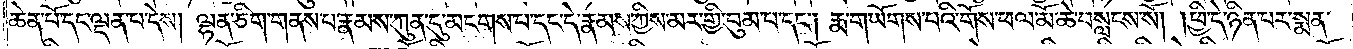ཆེན་པོ་དང་ལྡན་པ་དེས། ལྷན་ཅིག་གནས་པ་རྣམས་ཀུན་དུ་མངགས་པ་དང་དེ་རྣམས་ཀྱིས་མར་གྱི་བུམ་པ་དང༌། རྨ་གཡོགས་པའི་གོས་ཕལ་མོ་ཆེ་བསླངས་སོ། །ཕྱི་དེ་ཉིན་པར་སྨན་
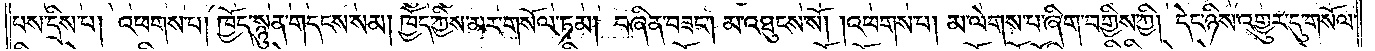པས་དྲིས་པ། འཕགས་པ། ཁྱོད་སྙུན་གདངས་སམ། ཁྱོད་ཀྱིས་མར་གསོལ་ཏམ། བཞིན་བཟང༌། མ་འཐུངས་སོ། །འཕགས་པ། མ་ལེགས་པ་ཞིག་བགྱིས་ཀྱི། དེང་ཉིས་འགྱུར་དུ་གསོལ་
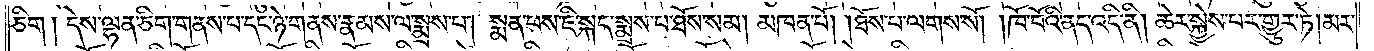ཅིག། དེས་ལྷན་ཅིག་གནས་པ་དང་ཉེ་གནས་རྣམས་ལ་སྨྲས་པ། སྨན་པས་ཇི་སྐད་སྨྲས་པ་ཐོས་སམ། མཁན་པོ། །ཐོས་པ་ལགས་སོ། །ཁོ་བོའི་ནད་འདི་ནི། ཆེར་སྐྱེས་པར་གྱུར་ཏེ། མར་
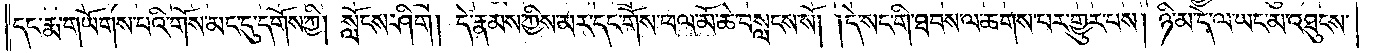དང་རྨ་གཡོགས་པའི་གོས་མང་དུ་དགོས་ཀྱི། སློངས་ཤིག། དེ་རྣམས་ཀྱིས་མར་དང་གོས་ཕལ་མོ་ཆེ་བསླངས་སོ། །དེ་སང་གི་ཐབས་ལ་ཆགས་པར་གྱུར་པས། ཉི་མ་དེ་ལ་ཡང་མ་འཐུངས་
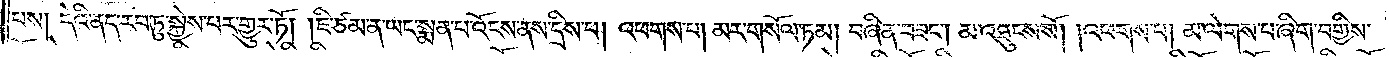པས། དེའི་ནད་རབ་ཏུ་སྐྱེས་པར་གྱུར་ཏོ། །ཇི་ཙམ་ན་ཡང་སྨན་པ་འོངས་ནས་དྲིས་པ། འཕགས་པ། མར་གསོལ་ཏམ། བཞིན་བཟང༌། མ་འཐུངས་སོ། །འཕགས་པ། མ་ལེགས་པ་ཞིག་བགྱིས་
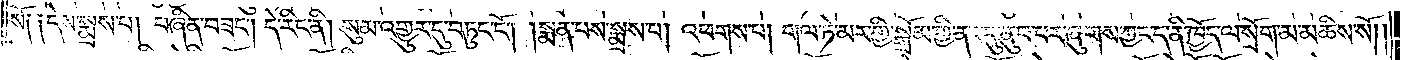སོ༑ ༑དེས་སྨྲས་པ། བཞིན་བཟང༌། དེ་རིང་ནི། སུམ་འགྱུར་དུ་བཏུང་ངོ༌། །སྨན་པས་སྨྲས་པ། འཕགས་པ། གལ་ཏེ་མར་གྱི་སྒྲོམ་གྱི་ནང་དུ་ནུབ་པར་ཞུགས་ཀྱང་ད་ནི་ཁྱོད་ལ་སྲོག་མ་མཆིས་སོ༎
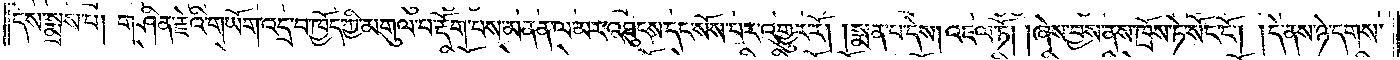དེས་སྨྲས་པ། གཤིན་རྗེའི་གཡོག་འདྲ་བ་ཁྱོད་ཀྱི་མགུལ་པ་རྡོག་པས་མནན་ལ་མར་འཐུངས་དང་སོས་པར་འགྱུར་རོ། །སྨན་པ་དེས། འཇལ་ཏོ། །ཞེས་བྱས་ནས་ཁྲོས་ཏེ་སོང་ངོ༌། །དེ་ནས་ཉེ་དགས་
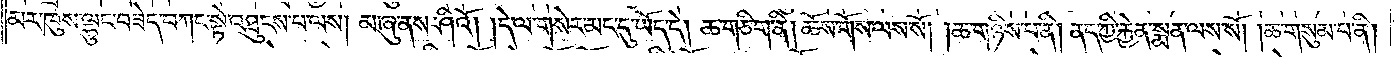མར་ཁུས་ལྷུང་བཟེད་བཀང་སྟེ་འཐུངས་པ་ལས། མ་ཞུ་ནས་ཤིའོ། །དེ་ལ་གསེར་མང་དུ་ཡོད་དེ། ཆ་གཅིག་ནི། ཆོས་གོས་ལས་སོ། །ཆ་གཉིས་པ་ནི། ནད་ཀྱི་རྐྱེན་སྨན་ལས་སོ། །ཆ་གསུམ་པ་ནི།
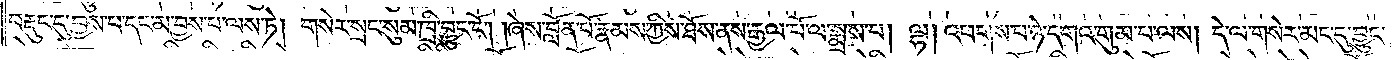བརྡུང་དུ་བྱས་པ་དང་མ་བྱས་པ་ལས་ཏེ། གསེར་སྲང་སུམ་ཁྲི་བྱུང་ངོ༌། །ཞེས་བློན་པོ་རྣམས་ཀྱིས་ཐོས་ནས་རྒྱལ་པོ་ལ་སྨྲས་པ། ལྷ། འཕགས་པ་ཉེ་དགའ་གུམ་པ་ལས། དེ་ལ་གསེར་མང་དུ་བྱུང་
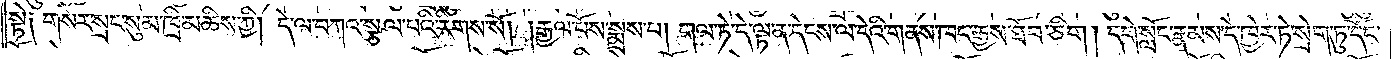སྟེ༑ གསེར་སྲང་སུམ་ཁྲི་མཆིས་ཀྱི། དེ་ལ་བཀའ་སྩལ་བའི་རིགས་སོ། །རྒྱལ་པོས་སྨྲས་པ། གལ་ཏེ་དེ་ལྟ་ན་དེངས་ལ་དེའི་གནས་ཁང་རྒྱས་ཐོབ་ཅིག། དགེ་སློང་རྣམས་དེ་ཁྱེར་ཏེ་སྲེག་ཏུ་དོང་
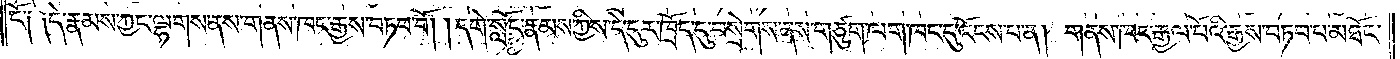ངོ༑ ༑དེ་རྣམས་ཀྱང་ལྷགས་ནས་གནས་ཁང་རྒྱས་བཏབ་བོ། །དགེ་སློང་རྣམས་ཀྱིས་དེ་དུར་ཁྲོད་དུ་བསྲེགས་ནས་གཙུག་ལག་ཁང་དུ་འོངས་པ་ན། གནས་ཁང་རྒྱལ་པོའི་རྒྱས་བཏབ་པ་མཐོང་
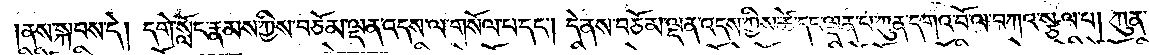།ནས་སྐབས་དེ། དགེ་སློང་རྣམས་ཀྱིས་བཅོམ་ལྡན་འདས་ལ་གསོལ་པ་དང༌། དེ་ནས་བཅོམ་ལྡན་འདས་ཀྱིས་ཚེ་དང་ལྡན་པ་ཀུན་དགའ་བོ་ལ་བཀའ་སྩལ་པ། ཀུན་
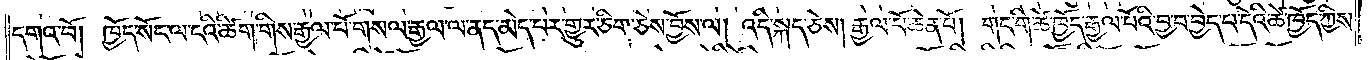དགའ་བོ། ཁྱོད་སོང་ལ་ངའི་ཚིག་གིས་རྒྱལ་པོ་གསལ་རྒྱལ་ལ་ནད་མེད་པར་གྱུར་ཅིག་ཅེས་བྱོས་ལ། འདི་སྐད་ཅེས། རྒྱལ་པོ་ཆེན་པོ། གང་གི་ཚེ་ཁྱོད་རྒྱལ་པོའི་བྱ་བ་བྱེད་པ་དེའི་ཚེ་ཁྱོད་ཀྱིས་
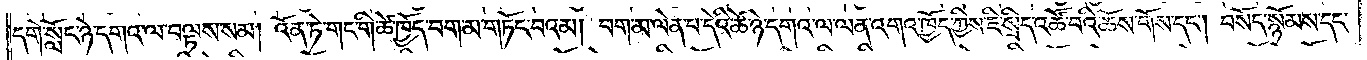དགེ་སློང་ཉེ་དགའ་ལ་བལྟས་སམ། འོན་ཏེ་གང་གི་ཚེ་ཁྱོད་བག་མ་གཏོང་བའམ། བག་མ་ལེན་པ་དེའི་ཚེ་ཉེ་དགའ་ལ་ལན་འགའ་ཁྱོད་ཀྱིས་ཇི་སྲིད་འཚོ་བའི་ཆོས་གོས་དང༌། བསོད་སྙོམས་དང་
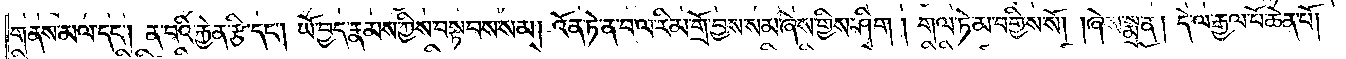གནས་མལ་དང༌། ན་བའི་རྐྱེན་རྩི་དང༌། ཡོ་བྱད་རྣམས་ཀྱིས་བསྟབས་སམ། འོན་ཏེ་ན་བ་ལ་རིམ་གྲོ་བྱས་སམ་ཞེས་གྱིས་ཤིག། གལ་ཏེ་མ་བགྱིས་སོ། །ཞེས་སྨྲ་ན། དེ་ལ་རྒྱལ་པོ་ཆེན་པོ།
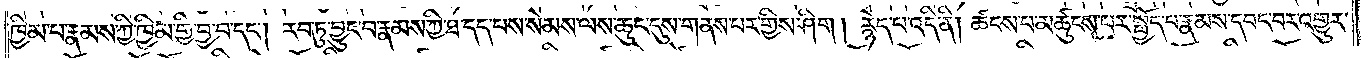ཁྱིམ་པ་རྣམས་ཀྱི་ཁྱིམ་གྱི་བྱ་བ་དང༌། རབ་ཏུ་བྱུང་བ་རྣམས་ཀྱི་ཐ་དད་པས་སེམས་ལས་ཆུང་ངུས་གནས་པར་གྱིས་ཤིག། རྙེད་པ་འདི་ནི། ཚངས་པ་མཚུངས་པར་སྤྱོད་པ་རྣམས་དབང་བར་འགྱུར་
